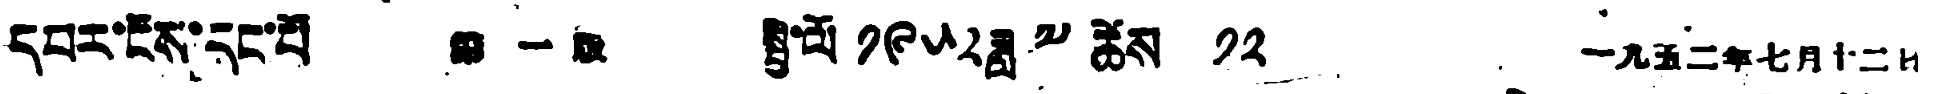དཔར་ངོས་དང་པོ 第一版 སྤྱི་ལོ་ ༡༩༥༢ཟླ་༧ ཚེས ༡༢ 一九五二年七月十二日
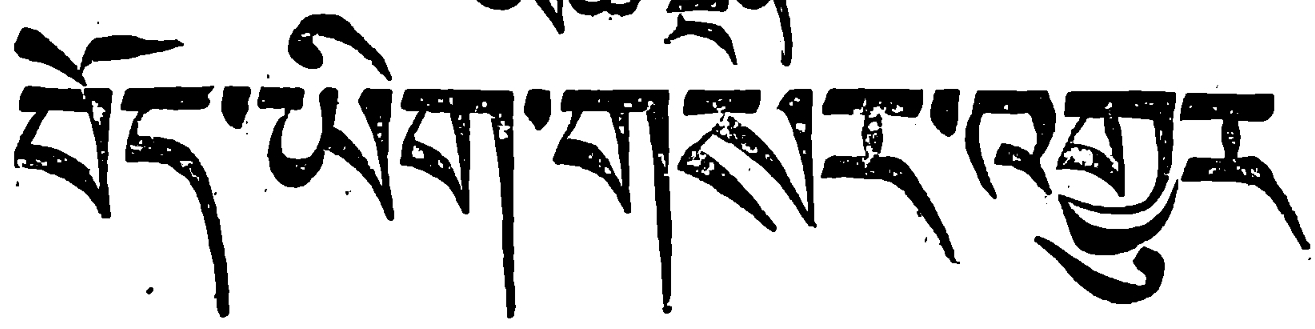བོད་ཡིག་གསར་འགྱུར
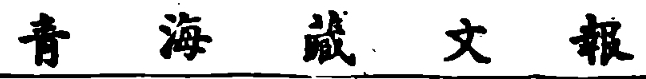靑 海 藏 文 報
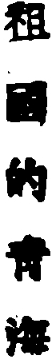祖 國 的 靑 海
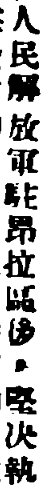人民解放軍駐昂拉區後，堅決執
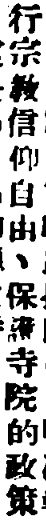行宗敎信仰自由、保護寺院的政策
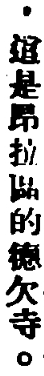，這是昂拉區的德欠寺。
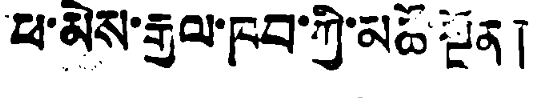ཕ་མེས་རྒྱལ་ཁབ་ཀྱི་མཚོ་སྔོན།
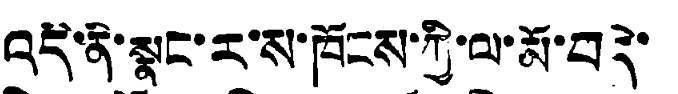འདི་ནི་སྣང་ར་ས་ཁོངས་ཀྱི་ལ་མོ་བདེ་
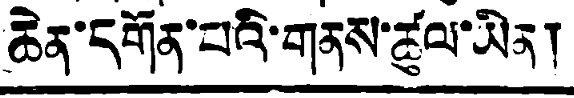ཆེན་དགོན་པའི་གནས་ཚུལ་ཡིན།
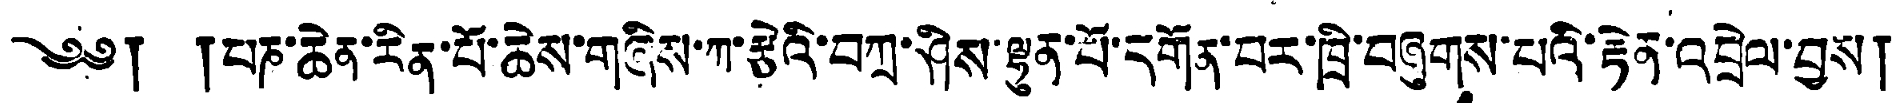༄༅། །པཎ་ཆེན་རིན་པོ་ཆེས་གཞིས་ཀ་རྩེའི་བཀྲ་ཤིས་ལྷུན་པོ་དགོན་པར་ཁྲི་བཞུགས་པའི་རྟེན་འབྲེལ་བྱས།
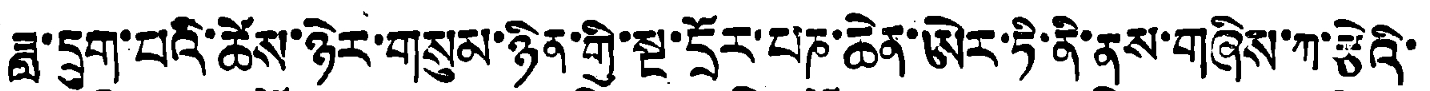ཟླ་དྲུག་པའི་ཚེས་ཉེར་གསུམ་ཉིན་གྱི་སྔ་དྲོར་པཎ་ཆེན་ཨེར་ཏི་ནི་ནས་གཞིས་ཀ་རྩེའི་
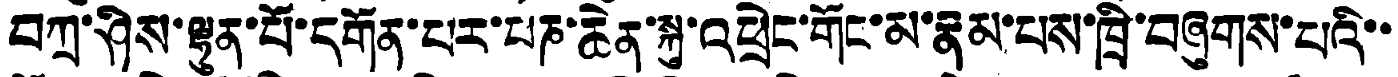བཀྲ་ཤིས་ལྷུན་པོ་དགོན་པར་པཎ་ཆེན་སྐུ་འཕྲེང་གོང་མ་རྣམ་པས་ཁྲི་བཞུགས་པའི་་
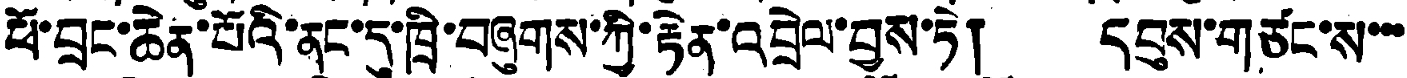ཕོ་བྲང་ཆེན་པོའི་ནང་དུ་ཁྲི་བཞུགས་ཀྱི་རྟེན་འབྲེལ་བྱས་ཏེ། དབུས་གཙང་ས་་་
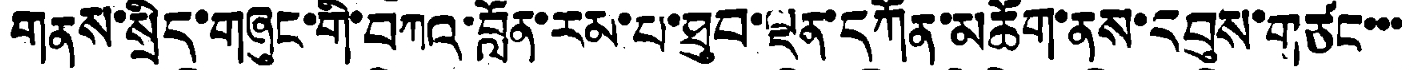གནས་སྲིད་གཞུང་གི་བཀའ་བློན་རམ་པ་ཐུབ་ལྡན་དཀོན་མཆོག་ནས་དབུས་གཙང་་་
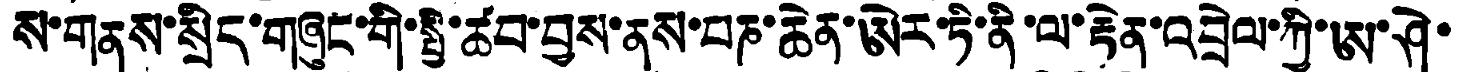ས་གནས་སྲིད་གཞུང་གི་སྤྱི་ཚབ་བྱས་ནས་པཎ་ཆེན་ཨེར་ཏི་ནི་ལ་རྟེན་འབྲེལ་ཀྱི་ཨ་ཤེ་
